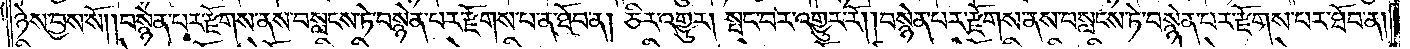ཉེས་བྱས་སོ། །བསྙེན་པར་རྫོགས་ནས་བསླངས་ཏེ་བསྙེན་པར་རྫོགས་པ་ན་ཐོབ་ན། ཅིར་འགྱུར། སྤང་བར་འགྱུར་རོ། །བསྙེན་པར་རྫོགས་ནས་བསླངས་ཏེ་བསྙེན་པར་རྫོགས་པར་ཐོབ་ན།
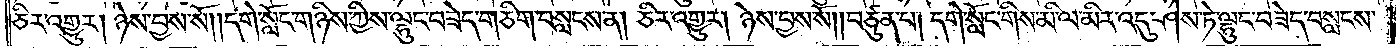ཅིར་འགྱུར། ཉེས་བྱས་སོ། །དགེ་སློང་གཉིས་ཀྱིས་ལྷུང་བཟེད་གཅིག་བསླངས་ན། ཅིར་འགྱུར། ཉེས་བྱས་སོ། །བཙུན་པ། དགེ་སློང་གིས་མི་ལ་མིར་འདུ་ཤེས་ཏེ་ལྷུང་བཟེད་བསླངས་
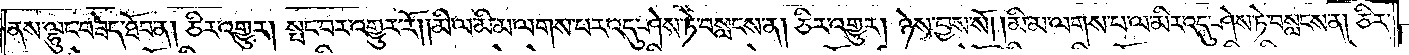ནས་ལྷུང་བཟེད་ཐོབ་ན། ཅིར་འགྱུར། སྤང་བར་འགྱུར་རོ། །མི་ལ་མི་མ་ལགས་པར་འདུ་ཤེས་ཏེ་བསླངས་ན། ཅིར་འགྱུར། ཉེས་བྱས་སོ། །མི་མ་ལགས་པ་ལ་མིར་འདུ་ཤེས་ཏེ་བསླངས་ན། ཅིར་
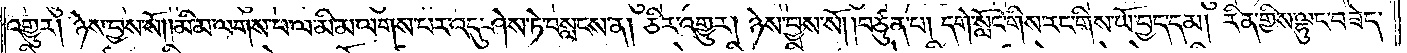འགྱུར། ཉེས་བྱས་སོ། །མི་མ་ལགས་པ་ལ་མི་མ་ལགས་པར་འདུ་ཤེས་ཏེ་བསླངས་ན། ཅིར་འགྱུར། ཉེས་བྱས་སོ། །བཙུན་པ། དགེ་སློང་གིས་རང་གིས་ཡོ་བྱད་དམ། རིན་གྱིས་ལྷུང་བཟེད་
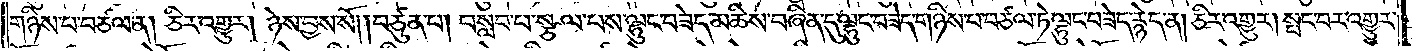གཉིས་པ་བཙལ་ན། ཅིར་འགྱུར། ཉེས་བྱས་སོ། །བཙུན་པ། བསླབ་པ་སྩལ་པས་ལྷུང་བཟེད་མཆིས་བཞིན་དུ་ལྷུང་བཟེད་གཉིས་པ་བཙལ་ཏེ་ལྷུང་བཟེད་རྙེད་ན། ཅིར་འགྱུར། སྤང་བར་འགྱུར་
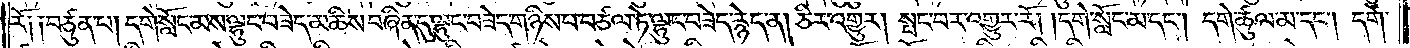རོ། །བཙུན་པ། དགེ་སློང་མས་ལྷུང་བཟེད་མཆིས་བཞིན་དུ་ལྷུང་བཟེད་གཉིས་པ་བཙལ་ཏེ་ལྷུང་བཟེད་རྙེད་ན། ཅིར་འགྱུར། སྤང་བར་འགྱུར་རོ། །དགེ་སློང་མ་དང༌། དགེ་ཚུལ་མ་དང༌། དགེ་
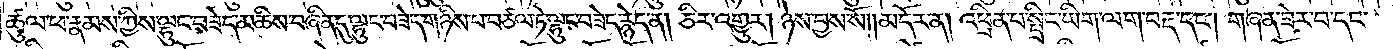ཚུལ་ཕ་རྣམས་ཀྱིས་ལྷུང་བཟེད་མཆིས་བཞིན་དུ་ལྷུང་བཟེད་གཉིས་པ་བཙལ་ཏེ་ལྷུང་བཟེད་རྙེད་ན། ཅིར་འགྱུར། ཉེས་བྱས་སོ།    །མདོར་ན། འཕྲིན་པ་སྤྲིང་ཡིག་ལག་བརྡ་དང༌། གཞན་ཟེར་བ་དང་
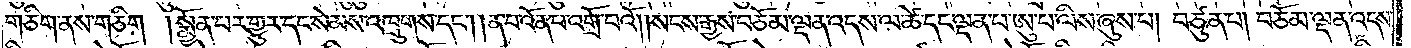གཅིག་ནས་གཅིག །སྨྱོན་པར་གྱུར་དང་སེམས་འཁྲུགས་དང༌། །ན་བ་འོན་པ་འགྲོ་བའོ། །སངས་རྒྱས་བཅོམ་ལྡན་འདས་ལ་ཚེ་དང་ལྡན་པ་ཨུ་པ་ལིས་ཞུས་པ། བཙུན་པ། བཅོམ་ལྡན་འདས་
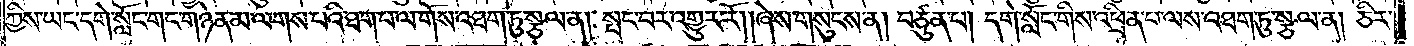ཀྱིས་ཡང་དགེ་སློང་གང་གཉེན་མ་ལགས་པའི་ཐག་པ་ལ་གོས་འཐག་ཏུ་སྩལ་ན། སྤང་བར་འགྱུར་རོ། །ཞེས་གསུངས་ན། བཙུན་པ། དགེ་སློང་གིས་འཕྲིན་པ་ལས་འཐག་ཏུ་སྩལ་ན། ཅིར་
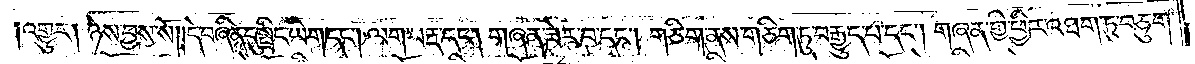།འགྱུར། ཉེས་བྱས་སོ། །དེ་བཞིན་དུ་སྤྲིང་ཡིག་དང༌། ལག་བརྡ་དང༌། གཞན་ཟེར་བ་དང༌། གཅིག་ནས་གཅིག་ཏུ་བརྒྱུད་པ་དང༌། གཞན་གྱི་ཕྱིར་འཐག་ཏུ་བཅུག་
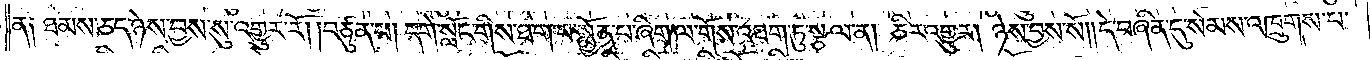ན༑ ཐམས་ཅད་ཉེས་བྱས་སུ་འགྱུར་རོ། །བཙུན་པ། དགེ་སློང་གིས་ཐ་ག་པ་སྨྱོན་པ་ཞིག་ལ་གོས་འཐག་ཏུ་སྩལ་ན། ཅིར་འགྱུར། ཉེས་བྱས་སོ། །དེ་བཞིན་དུ་སེམས་འཁྲུགས་པ་
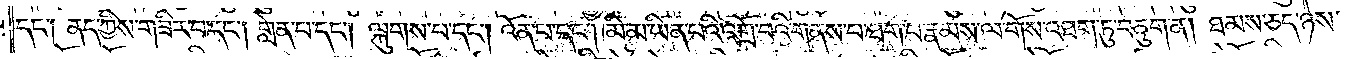དང༌། ནད་ཀྱིས་གཟིར་བ་དང༌། གླེན་པ་དང༌། ལྐུགས་པ་དང༌། འོན་པ་དང༌། མི་མ་ཡིན་པའི་འགྲོ་བའི་གནས་པ་ཐ་ག་པ་རྣམས་ལ་གོས་འཐག་ཏུ་བཅུག་ན། ཐམས་ཅད་ཉེས་
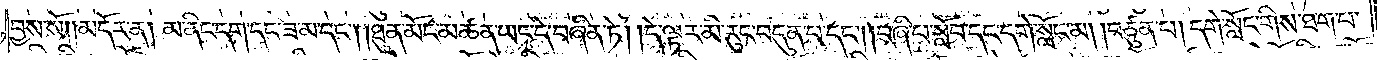བྱས་སོ།    །མདོར་ན། མ་ནིང་དག་དང་ཟ་མ་དང༌། །ཐུན་མོང་མཚན་ཡང་དེ་བཞིན་ཏེ། །དེ་ལྟར་མི་རུང་བདུན་པ་དང༌། །བཞི་པ་སློབ་དང་དགེ་སློང་མ། །བཙུན་པ། དགེ་སློང་གིས་ཐ་ག་པ་
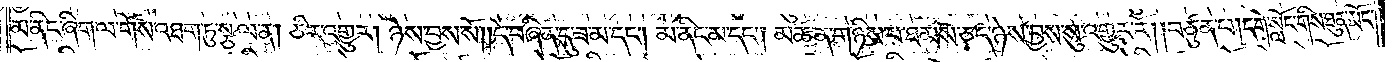མ་ནིང་ཞིག་ལ་གོས་འཐག་ཏུ་སྩལ་ན། ཅིར་འགྱུར། ཉེས་བྱས་སོ། །དེ་བཞིན་དུ་ཟ་མ་དང༌། མ་ནིང་མ་དང༌། མཚན་གཉིས་པ་ཐམས་ཅད་ཉེས་བྱས་སུ་འགྱུར་རོ། །བཙུན་པ། དགེ་སློང་གིས་ཐུན་མོང་
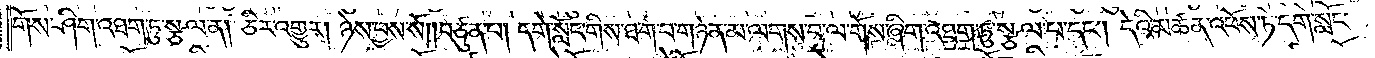གོས་ཤིག་འཐག་ཏུ་སྩལ་ན། ཅིར་འགྱུར། ཉེས་བྱས་སོ། །བཙུན་པ། དགེ་སློང་གིས་ཐ་ག་པ་གཉེན་མ་ལགས་བ་ལ་གོས་ཞིག་འཐག་ཏུ་སྩལ་པ་དང༌། དེའི་མཚན་འཕོས་ཏེ་དགེ་སློང་
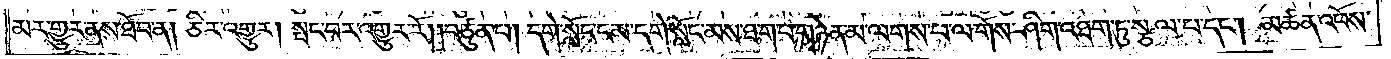མར་གྱུར་ནས་ཐོབ་ན། ཅིར་འགྱུར། སྤང་བར་འགྱུར་རོ། །བཙུན་པ། དགེ་སློང་ངམ་དགེ་སློང་མས་ཐ་ག་པ་གཉེན་མ་ལགས་པ་ལ་གོས་ཤིག་འཐག་ཏུ་སྩལ་པ་དང༌། མཚན་འཕོས་
